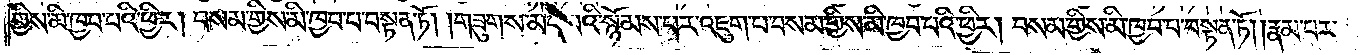གྱིས་མི་ཁྱབ་པའི་ཕྱིར། བསམ་གྱིས་མི་ཁྱབ་པ་བསྟན་ཏོ། །གཟུགས་མེད་པའི་སྙོམས་པར་འཇུག་པ་བསམ་གྱིས་མི་ཁྱབ་པའི་ཕྱིར། བསམ་གྱིས་མི་ཁྱབ་པ་བསྟན་ཏོ། །རྣམ་པར་
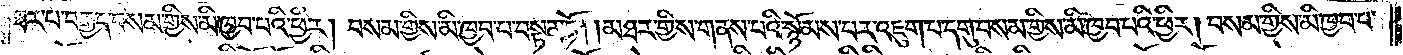ཐར་པ་བརྒྱད་བསམ་གྱིས་མི་ཁྱབ་པའི་ཕྱིར། བསམ་གྱིས་མི་ཁྱབ་པ་བསྟན་ཏོ། །མཐར་གྱིས་གནས་པའི་སྙོམས་པར་འཇུག་པ་དགུ་བསམ་གྱིས་མི་ཁྱབ་པའི་ཕྱིར། བསམ་གྱིས་མི་ཁྱབ་པ་
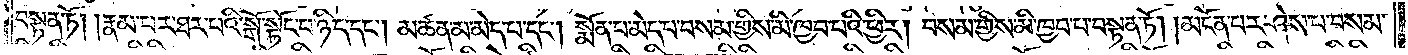བསྟན་ཏོ། །རྣམ་པར་ཐར་པའི་སྒོ་སྟོང་པ་ཉིད་དང༌། མཚན་མ་མེད་པ་དང༌། སྨོན་པ་མེད་པ་བསམ་གྱིས་མི་ཁྱབ་པའི་ཕྱིར། བསམ་གྱིས་མི་ཁྱབ་པ་བསྟན་ཏོ། །མངོན་པར་ཤེས་པ་བསམ་
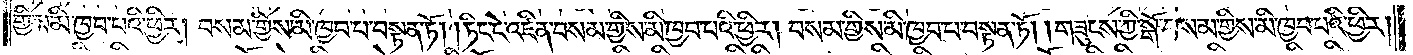གྱིས་མི་ཁྱབ་པའི་ཕྱིར། བསམ་གྱིས་མི་ཁྱབ་པ་བསྟན་ཏོ། །ཏིང་ངེ་འཛིན་བསམ་གྱིས་མི་ཁྱབ་པའི་ཕྱིར། བསམ་གྱིས་མི་ཁྱབ་པ་བསྟན་ཏོ། །གཟུངས་ཀྱི་སྒོ་བསམ་གྱིས་མི་ཁྱབ་པའི་ཕྱིར།
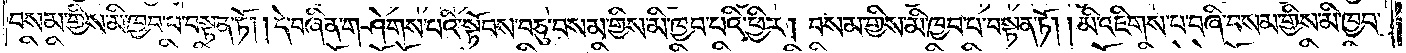བསམ་གྱིས་མི་ཁྱབ་པ་བསྟན་ཏོ། །དེ་བཞིན་གཤེགས་པའི་སྟོབས་བཅུ་བསམ་གྱིས་མི་ཁྱབ་པའི་ཕྱིར། བསམ་གྱིས་མི་ཁྱབ་པ་བསྟན་ཏོ། །མི་འཇིགས་པ་བཞི་བསམ་གྱིས་མི་ཁྱབ་
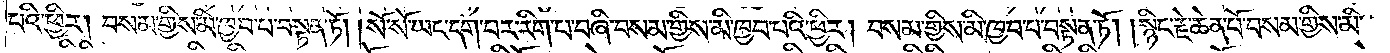པའི་ཕྱིར། བསམ་གྱིས་མི་ཁྱབ་པ་བསྟན་ཏོ། །སོ་སོ་ཡང་དག་པར་རིག་པ་བཞི་བསམ་གྱིས་མི་ཁྱབ་པའི་ཕྱིར། བསམ་གྱིས་མི་ཁྱབ་པ་བསྟན་ཏོ། །སྙིང་རྗེ་ཆེན་པོ་བསམ་གྱིས་མི་
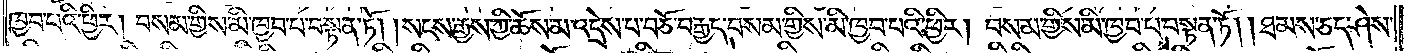ཁྱབ་པའི་ཕྱིར། བསམ་གྱིས་མི་ཁྱབ་པ་བསྟན་ཏོ། །སངས་རྒྱས་ཀྱི་ཆོས་མ་འདྲེས་པ་བཅོ་བརྒྱད་བསམ་གྱིས་མི་ཁྱབ་པའི་ཕྱིར། བསམ་གྱིས་མི་ཁྱབ་པ་བསྟན་ཏོ། །ཐམས་ཅད་ཤེས་
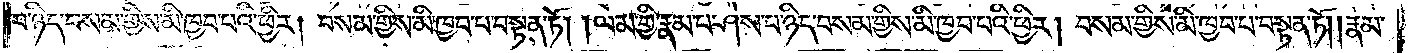པ་ཉིད་བསམ་གྱིས་མི་ཁྱབ་པའི་ཕྱིར། བསམ་གྱིས་མི་ཁྱབ་པ་བསྟན་ཏོ། །ལམ་གྱི་རྣམ་པ་ཤེས་པ་ཉིད་བསམ་གྱིས་མི་ཁྱབ་པའི་ཕྱིར། བསམ་གྱིས་མི་ཁྱབ་པ་བསྟན་ཏོ། །རྣམ་
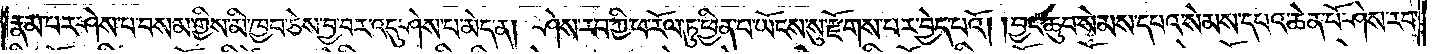རྣམ་པར་ཤེས་པ་བསམ་གྱིས་མི་ཁྱབ་ཅེས་བྱ་བར་འདུ་ཤེས་པ་མེད་ན། ཤེས་རབ་ཀྱི་ཕ་རོལ་ཏུ་ཕྱིན་པ་ཡོངས་སུ་རྫོགས་པར་བྱེད་པའོ། །བྱང་ཆུབ་སེམས་དཔའ་སེམས་དཔའ་ཆེན་པོ་ཤེས་རབ་
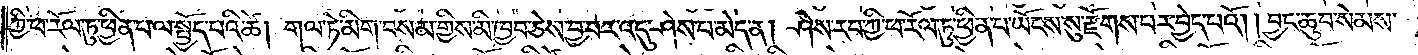ཀྱི་ཕ་རོལ་ཏུ་ཕྱིན་པ་ལ་སྤྱོད་པའི་ཚེ། གལ་ཏེ་མིག་བསམ་གྱིས་མི་ཁྱབ་ཅེས་བྱ་བར་འདུ་ཤེས་པ་མེད་ན། ཤེས་རབ་ཀྱི་ཕ་རོལ་ཏུ་ཕྱིན་པ་ཡོངས་སུ་རྫོགས་པར་བྱེད་པའོ། །བྱང་ཆུབ་སེམས་
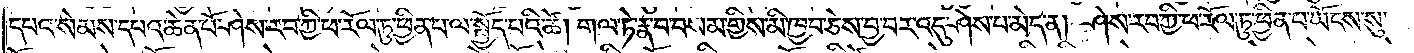དཔའ་སེམས་དཔའ་ཆེན་པོ་ཤེས་རབ་ཀྱི་ཕ་རོལ་ཏུ་ཕྱིན་པ་ལ་སྤྱོད་པའི་ཚེ། གལ་ཏེ་རྣ་བ་བསམ་གྱིས་མི་ཁྱབ་ཅེས་བྱ་བར་འདུ་ཤེས་པ་མེད་ན། ཤེས་རབ་ཀྱི་ཕ་རོལ་ཏུ་ཕྱིན་པ་ཡོངས་སུ་
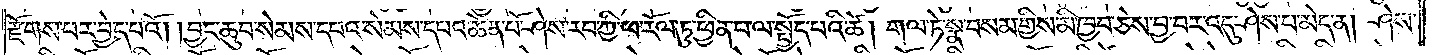རྫོགས་པར་བྱེད་པའོ། །བྱང་ཆུབ་སེམས་དཔའ་སེམས་དཔའ་ཆེན་པོ་ཤེས་རབ་ཀྱི་ཕ་རོལ་ཏུ་ཕྱིན་པ་ལ་སྤྱོད་པའི་ཚེ། གལ་ཏེ་སྣ་བསམ་གྱིས་མི་ཁྱབ་ཅེས་བྱ་བར་འདུ་ཤེས་པ་མེད་ན། ཤེས་
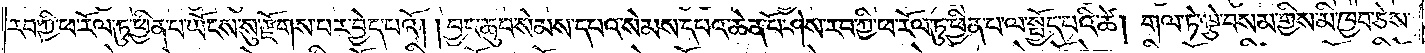རབ་ཀྱི་ཕ་རོལ་ཏུ་ཕྱིན་པ་ཡོངས་སུ་རྫོགས་པར་བྱེད་པའོ། །བྱང་ཆུབ་སེམས་དཔའ་སེམས་དཔའ་ཆེན་པོ་ཤེས་རབ་ཀྱི་ཕ་རོལ་ཏུ་ཕྱིན་པ་ལ་སྤྱོད་པའི་ཚེ། གལ་ཏེ་ལྕེ་བསམ་གྱིས་མི་ཁྱབ་ཅེས་
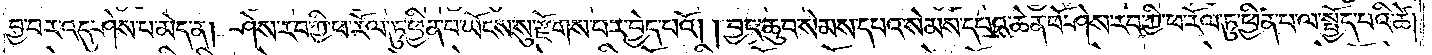བྱ་བར་འདུ་ཤེས་པ་མེད་ན། ཤེས་རབ་ཀྱི་ཕ་རོལ་ཏུ་ཕྱིན་པ་ཡོངས་སུ་རྫོགས་པར་བྱེད་པའོ། །བྱང་ཆུབ་སེམས་དཔའ་སེམས་དཔའ་ཆེན་པོ་ཤེས་རབ་ཀྱི་ཕ་རོལ་ཏུ་ཕྱིན་པ་ལ་སྤྱོད་པའི་ཚེ།
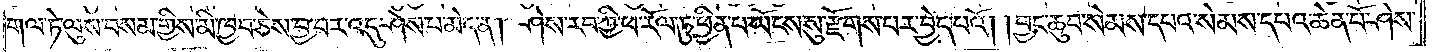གལ་ཏེ་ལུས་བསམ་གྱིས་མི་ཁྱབ་ཅེས་བྱ་བར་འདུ་ཤེས་པ་མེད་ན། ཤེས་རབ་ཀྱི་ཕ་རོལ་ཏུ་ཕྱིན་པ་ཡོངས་སུ་རྫོགས་པར་བྱེད་པའོ། །བྱང་ཆུབ་སེམས་དཔའ་སེམས་དཔའ་ཆེན་པོ་ཤེས་
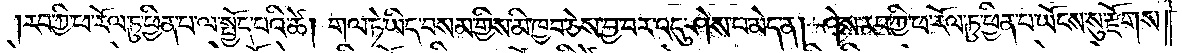རབ་ཀྱི་ཕ་རོལ་ཏུ་ཕྱིན་པ་ལ་སྤྱོད་པའི་ཚེ། གལ་ཏེ་ཡིད་བསམ་གྱིས་མི་ཁྱབ་ཅེས་བྱ་བར་འདུ་ཤེས་པ་མེད་ན། ཤེས་རབ་ཀྱི་ཕ་རོལ་ཏུ་ཕྱིན་པ་ཡོངས་སུ་རྫོགས་
